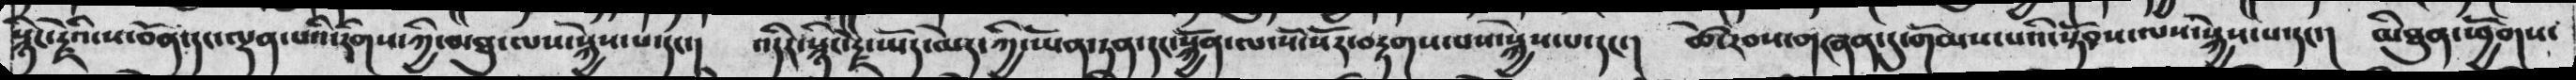སྙེ་རྗེའི་ས་བོན་དང་ལྡན་པའི་རིགས་ཀྱི་མཐུན་ལས་སྐྱེས་པ་དང་།  འདིར་སྙིང་རྗེ་ཡོད་མེད་ཀྱི་ཡོན་ཏན་དང་སྐྱོན་ལ་སོ་སོར་བརྟགས་པས་སྐྱེས་པ་དང་།  ཚེ་རབས་གཞན་དུ་གོམས་པའི་སྟོབས་ལས་སྐྱེས་པ་དང་།  མི་ཐུན་ཕྱོགས་
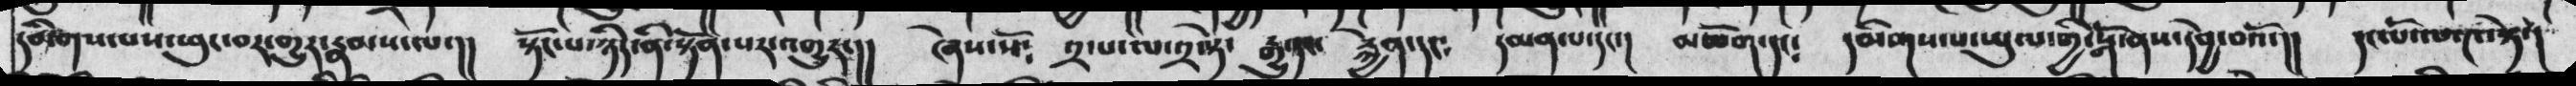དམིགས་པས་ཕུང་བར་གྱུར་རྣམས་ལ་།།  སྟོང་པ་ཉིད་ནི་སྟོན་པར་འགྱུར་།།  ཞེས་སོ༴   ༢་པ་ལ་༢་སྟེ་  རྒུ་དང་  རྐྱེན་དང༴  དམན་པ་དང་།  མཆོག་དང༴   དམིགས་པ་ཡུལ་གྱི་སྒོ་ནས་དབྱེ་བའོ་།།   དང་པོ་ལ་༤་སྟེ།
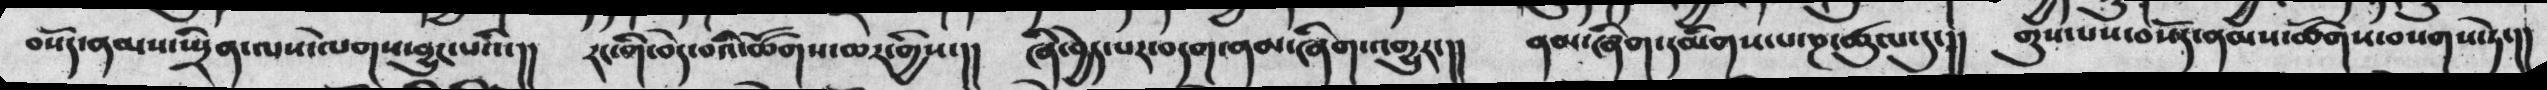བསོད་ནམས་སྤྲིན་ལས་ལེགས་བྱུང་པའི་།།  རང་གི་བདེ་བའི་ཚོགས་མར་གྱིས་།།  ཞི་བྱེད་པར་བདག་ནམ་ཞིག་འགྱུར་།།  ནམ་ཞིག་དམིགས་པ་ཎ་ཚུལ་དུ་།།  གུས་པས་བསོད་ནམས་ཚོགས་བསགས་ཏེ་།།
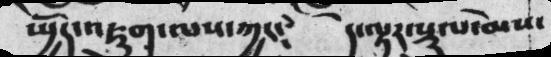སྤྱོད་འཇུག་ལས་ཀྱང༴  དེ་ལྟར་སྡུལ་སེམས་
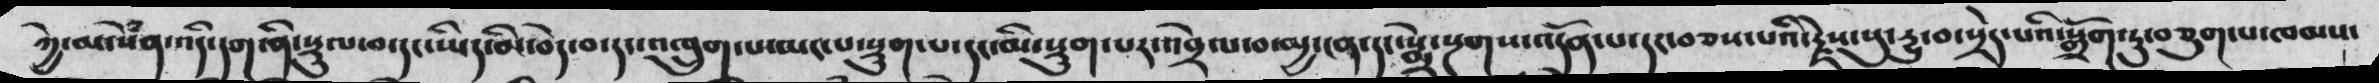ཀྱེ་མ་སེཾན་འདི་དག་གི་ནི་སྡུལ་བ་དང་ཡིད་མི་བདེ་བ་དང་འཁྲུག་པ་མང་པ་སྡུག་པ་དང་མི་སྡུག་པར་འབྲེལ་བ་མྱ་ངན་དང་སྨྲེ་སྔགས་འདོན་པ་དང་བཅས་པའི་རྗེས་སུ་རྱུ་བ་སྲིད་པའི་སྒྲོག་ཏུ་བཅུག་པ་ཁམས་
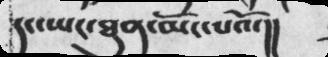དང་ཡང་ཐུན་མོང་པའོ་།།
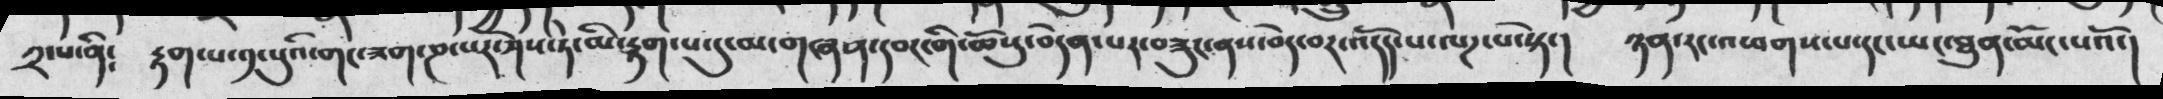༢་པ་ནི༴  རྟག་པ་༡་པུའི་གང་ཟག་ཎ་པར་ཤེས་ཏེ་མི་རྟག་པ་དུ་མ་གཞན་དབང་གི་ཆོསུ་བདེན་པར་བཟུང་ན་བདེ་བར་འདོད་པ་ལཌ་པ་སྟེ་།  ཉན་རང་འཕགས་པ་དང་ཡང་ཐུན་མོང་པའོ་།
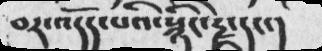བར་འདོད་པའི་སྙིང་རྗེ་དང་།
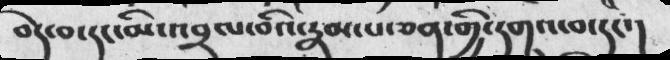བདེ་བ་དང་མི་འབྲལ་བའི་རྣམ་པ་ཅན་གྱི་དགའ་བ་དང་།
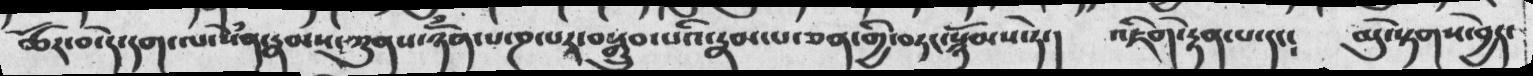ཚོར་བ་དེ་དག་ལ་སེཾན་རྣམས་ཀུནས་ཉོཾན་པ་ཎ་པར་བསྒྲུབ་པའི་རྣམ་པ་ཅན་གྱི་བཏང་སྙོམས་ཏེ་།  འཇིག་རྟེན་པ་དང༴  མུ་སྟེགས་བྱེད་
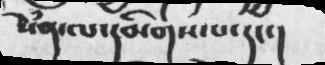སེཾན་ལ་དམིགས་པ་དང་།
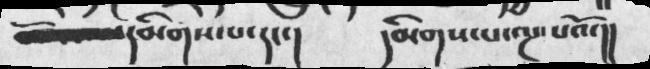དམིགས་པ་དང་།   དམིགས་པ་ལྔ་པའོ་།།
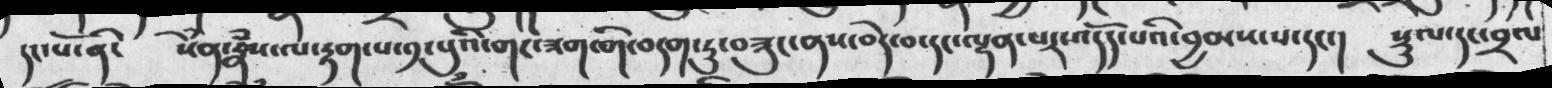དང་པོ་ནི་  སེཾན་རྣཾས་ལ་རྟག་པ་༡་པུའི་གང་ཟག་གི་བདག་ཏུ་བཟུང་ནས་བདེ་བ་དང་ལྷན་པར་འདོད་པའི་བྱམས་པ་དང་།  སྡུལ་དང་བྲལ
